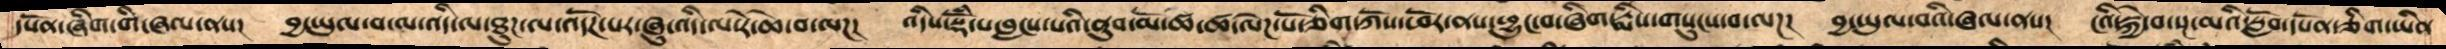དཔོན་ཞིག་གི་ཞལ་ནས།   བྱ་ཡུལ་བ་ལ་འདི་ལ་ཐུཌ་ལ་འདོཌ་པར་ཞུ་འདི་ལ་རེ་ཆེ་བ་ལཌ།   འདིས་སྡོཾ་པ་བླངས་པའི་ནུབ་མོ་ཚ་ཚ་ལེཌ་པོ་ཞིག་ཀོས་ཕོར་ནས་ཕྱུང་བ་ཞིག་རྨིས་གསུངས་བ་ལཌ།   བྱ་ཡུལ་བའི་ཞལ་ནས།   ངའི་སྐྱེ་བ་སྔ་མའི་སློབ་དཔོན་ཅིག་ཡིན་
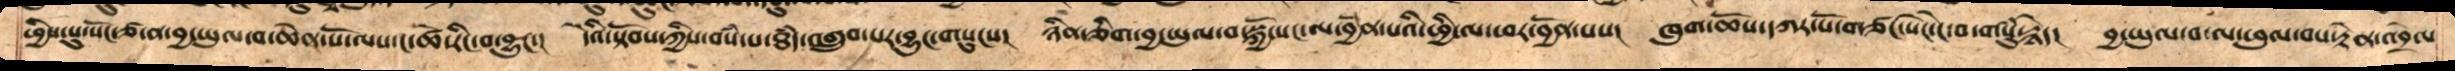ཕྱིས་སུ་སོང་ཙ་ན་བྱ་ཡུལ་བ་ཆེན་པོ་ལས་ང་ཚེ་རིང་བ་བྱུང་།   དེའི་སྟོབས་ཀྱིས་བསཾ་པ་ཐཾད་འགྲུབ་པར་བྱུང་གསུངས།  ཉིན་ཅིག་བྱ་ཡུལ་བ་སྐྱོ་སང་ལ་བྱོན་པའི་ཕྱི་ལ་ཕར་བྱོན་པས།   ཁུག་ཆོས་དཀར་པོ་གཙང་སེང་ངེ་བ་གསུཾ་རྙེད།   བྱ་ཡུལ་བ་ལ་ཕུལ་བས་རྟེན་འབྲེལ་
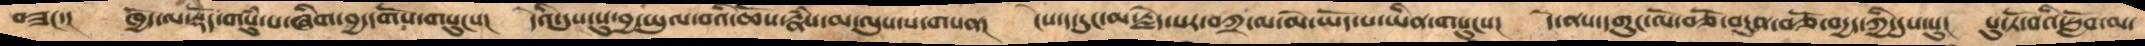བཟང་།   ཁྱོད་ལ་སྡེདོ་གསུཾ་པ་ཞིག་བྱདགོས་གསུངས།   དེའི་དུས་སུ་བྱ་ཡུལ་བའི་ཆོས་རྣཾས་མ་ལུས་པ་གསན།   ངེས་ད་དུང་མ་རྗེད་པར་བཀྲ་མ་མེ་ཡོད་པ་ཡིན་གསུངས།  དེ་ནས་དགུང་ལོ་བཅོ་བདུན་བཅོ་བདྱད་ཀྱི་དུས་སུ།   པུ་ཏོ་བའི་སློབ་མ་
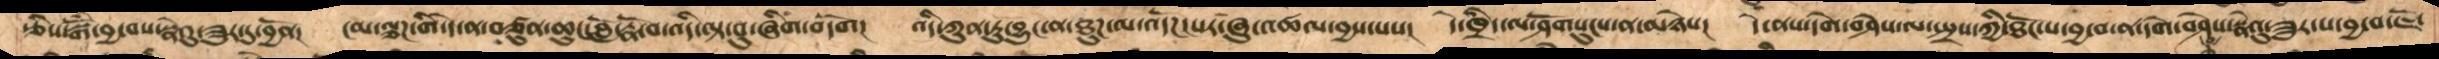རྩིས་སྒོཾ་བྱ་བས་སྣེའུ་ཟུར་དུ་བྱོན།   ངམ་ལྕཌ་གི་དེ་ན་བཙུན་ཆུང་བློ་རྣོ་བ་འདི་ལྟ་བུ་ཞིག་བདོག   འདི་ཀུན་ཏུ་བྱུང་ན་ཐུཌ་ལ་འདོཌ་པར་ཞུ་འཚལ་བྱས་པས།   དེ་ཁྲིད་ལ་ཤོགསུངས་ནས་མཉེས།   དེ་ནས་དགེ་བཤེས་ལ་སྤྲས་ཀྱི་ཐོང་པ་བྱ་བ་ན་དགེ་བཤེས་སྣེའུ་ཟུར་པ་བྱ་བ་ཇོ་
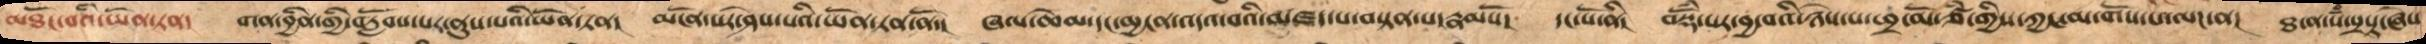མཐོང་བའི་ཡོན་ཏན།   གན་བྱིན་གྱི་བརློབས་པར་ནུས་པའི་ཡོན་ཏན།    མངོན་པར་ཤེས་པའི་ཡོན་ཏན་ནོ་།    ཞལ་ཆེམ་དང་མྱངན་འདའ་བའི་མཛད་པ་བསྟན་པ་རྣམསོ།   དང་པོ་ནི།   བསྡོཾ་པར་བྱ་བའི་ཉེས་པ་ཕྲ་མོ་ཙཾ་གྱིས་ཀྱང་མ་གོས་པ་ལཌ་ན།   ཐ་ན་སཾ་པྲསྟ་ཞེས
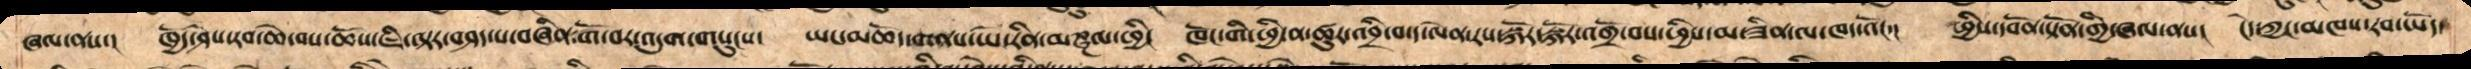ཞལ་ནས།   ཁྱོད་ཤེས་རབ་ཆེ་བས་ཆོས་ཇི་ལྟར་བཤད་པ་བཞིན་གོ་བར་འདུག་གསུངས།    ཡང་མཆོད་གནས་ཡོ་རིན་མཎྜལ་ཕྱི།   ཁོང་གི་ཕྱི་ན་ཚུར་འབྲི་བ་ད་ལེན་རས་སྐོར་སྐོར་འགྲོ་བས་ཕྱིས་མ་ཟིན་ལ་ཁད་འོང་།   ཕྱིས་དབོན་སྟོན་གྱི་ཞལ་ནས།    ངེད་ཀྱང་མཁས་རབ་ཡོད་
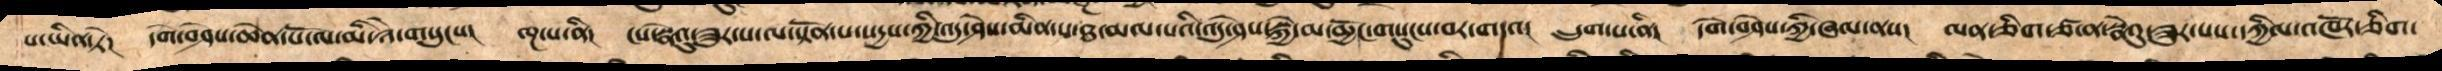པ་ཡིན་ཏེ།   དགེ་བཤེས་ཆེན་པོ་ལ་མི་ཉེ་གསུངས།  ལྔ་པ་ནི།   ངས་སྣེའུ་ཟུར་པ་ལ་སྟོན་པ་སདྱས་ཀྱི་འདུ་ཤེས་མིན་པ་ཐ་མལ་པའི་འདུ་ཤེས་སྐྱེ་མ་མྱོང་གསུངས་བར་གདའ།   དྲུག་པ་ནི།   དགེ་བཤེས་ཀྱི་ཞལ་ནས།   ལན་ཅིག་ཙ་ན་སྣེའུ་ཟུར་པས་དཀྱིལ་འཁོར་ཅིག་
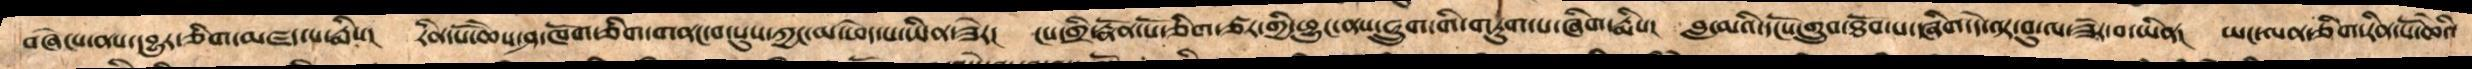བཞེངས་ནས་དབྱུར་ཅིག་མཛད་པ་རྨིས།   རིན་པོ་ཆེས་ཤ་ཁོག་ཅིག་གནང་བ་སུས་ཀྱང་མ་ཕེད་པ་ཡིན་ཟེར།   ངས་གྲི་རྣོན་པོ་ཅིག་ཙར་གྱི་ཕྱུང་ནས་ཧྲུག་གི་གཏུག་པ་ཞིག་རྨིས།  བླ་མའི་དངོས་གྲུབ་ཐོབ་པ་ཞིག་དེ་ལྟ་བུ་ལ་ཟེར་བ་ཡིན།  ཡང་ལན་ཅིག་རིན་པོ་ཆེའི
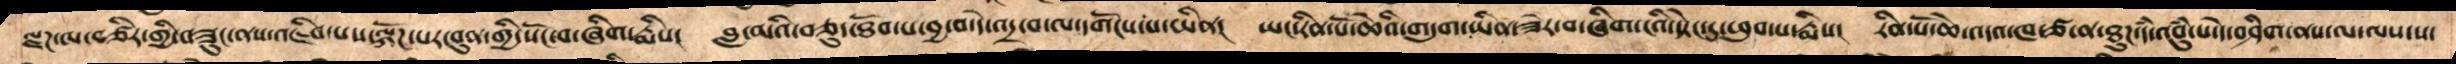ལྗཌ་ལ་བཙིར་གྱི་བཟུང་ནས་འཇིབ་པས་ལྐོཌ་པར་བུན་གྱི་སོང་བ་ཞིག་རྨིས།   བླ་མའི་བཅུད་ཐོབ་པ་བྱ་བ་དེ་འདྲ་བ་ལ་དགོངས་པ་ཡིན།    ཡང་རིན་པོ་ཆེའི་གདུག་ཡིན་ཟེར་བ་ཞིག་ངའི་སྟེང་དུ་ཕུབ་པ་རྨིས།   རིན་པོ་ཆེ་འདའ་ཁ་ཙ་ན་ཐུཌ་དཾ་འབུཾ་པ་དེ་བཤིག་ནས་ལ་ལས་ས་
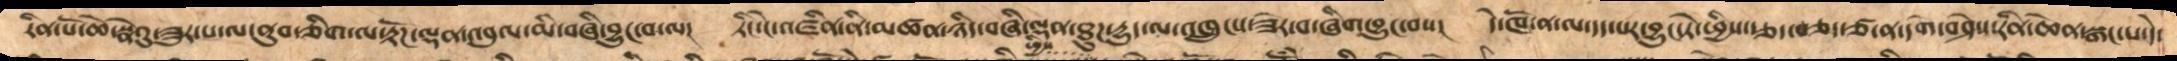རིན་པོ་ཆེ་སྣེའུ་ཟུར་པ་ལ་ནུབ་ཅིག་ལ་རྟོཌ་ལྡན་འབུལ་མི་བཞི་བྱུང་བ་ལ།   ཏིང་ངེ་འཛིན་ནི་མཚན་ཉིད་བཞི་ལྡན་ཐུཌ་དྱུད་ལ་འཁྲུངས་ཟེར་བ་ཞིག་བྱུང་བས།   དེ་ཁོ་ན་ལ་དད་པར་བྱུང་ཏེ་ཕྱིས་རྩད་བཅད་ཙ་ན་དགེ་བཤེས་རིན་ཆེན་སྒང་པ་དེ་
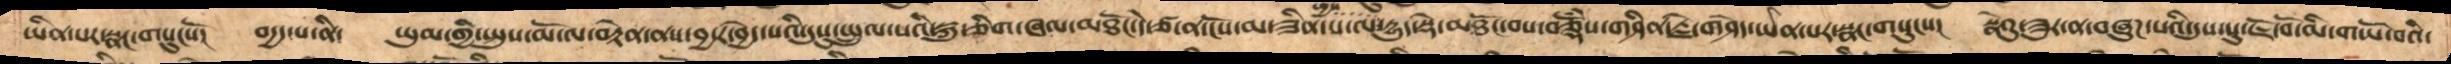ཡིན་པར་སྣང་གསུངསོ།  བདྱད་པ་ནི།   ཡུམ་གྱི་སྤུས་མོ་ལ་བརྟེན་ནས་བྱ་ར་བྱེད་པའི་དུསུ་སྤྲུལ་པའི་སྐུ་ཅིག་ཞལ་མཐོང་དེ་ཙ་ན་ངོས་མ་ཟིན་པ་ལ་ཕྱིས་དྱུད་སྡེ་མཐོང་བས་བཅྡོཾས་གཤིན་རྗེ་གཤེད་ཡིན་པར་སྣང་གསུངས།   སྣེའུ་ཟུར་ན་བཞུཌ་པའི་དུས་སུ་ཇོ་བོ་མི་གཡོ་བའི་
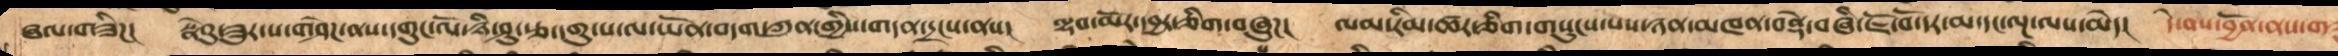ཞལ་གཟིཌ།  སྣེའུ་ཟུར་པ་གཤེཌ་ནས་དགུང་ལོ་ཉི་ཤུ་རྩ་དགུ་པ་ལ་ཡོན་བདག་ཀུན་གྱིས་གདན་དྲངས་ནས།   ལྷབ་མོར་དབྱར་ཅིག་བཞུཌ།   ལམ་རིམ་ཚར་ཅིག་གསུངས་པས་ཉན་མཁན་བནྡེ་བཞི་ཇོ་བོ་དར་མ་དང་ལྔ་ལས་མེད།   དེ་ནས་བྱོན་ནས་ག
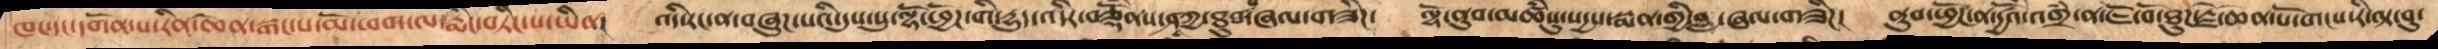ཁང་དང་དགོན་པ་རིན་ཆེན་སྒང་ས་མོ་ཕག་ལ་རྨིང་བཏིང་པ་ཡིན།   འདི་རང་ན་བཞུཌ་པའི་དུས་སུ་ལྷོ་ཕྱོཌ་ཀྱི་དྱུད་འདིར་བཅྡོཾནས་ཤཱཀྱ་ཐུབ་པ་ཞལ་གཟིཌ།   ལྷོ་ནུབ་མཚཾསུ་སདྱས་སྨན་གྱི་བླ་ཞལ་གཟིཌ།   ནུབ་ཕྱོཌ་ན་དྱཚོའི་འགྲཾ་ན་ཇོ་བོ་ཐུཌ་རྗེ་ཆེན་པོ་གངས་རི་ལྟ་བུ་
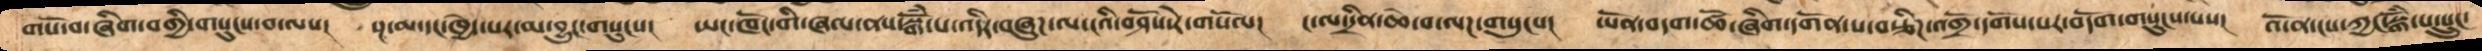གསོ་བ་ཞིག་བགྱི་གསུངས་བ་ལས།   སྔ་མ་དང་ཁྱེད་པར་མ་བྱུང་གསུངས།   ཡང་ཁོང་གི་ཞལ་ནས་སྒོཾ་པ་འདིར་བཞུཌ་ལ་ངའི་བཤོས་རེ་གསོལ།   ང་ལ་དྲིན་ཆེ་བ་ལཌ་གསུངས།    ཡོན་བདག་ཚོ་ཞིག་དགོན་པ་བརྩིཌ་འགྲོ་དགོས་པར་བདོག་གསུངས་པས།   འོ་ན་ངས་ཀྱང་སྒོཾ་པ་སྲུང་
